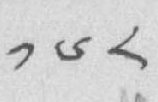༡༦༨
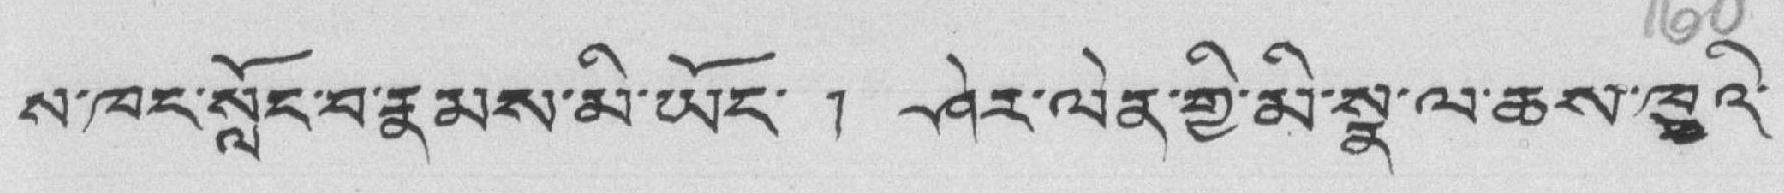ས་ཁང་སློང་བ་རྣམས་མི་ཡོང་ ། ཤེར་ལེན་གྱི་མི་སྣ་ལ་ཆས་ཁྲཁའི་
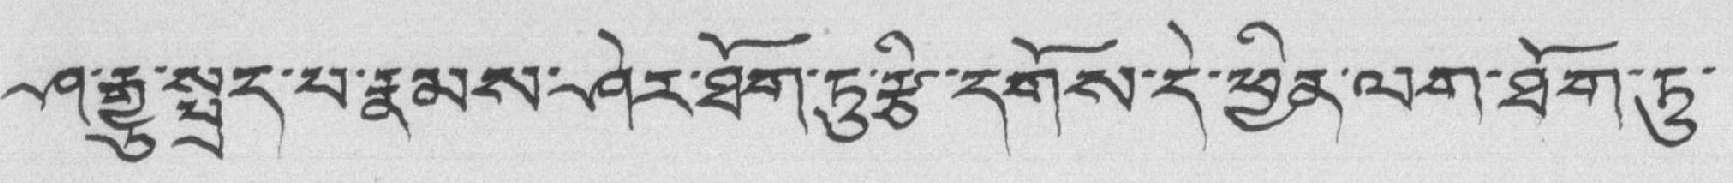ཤ་རྒྱུ་སྤྲད་པ་རྣམས་ཤེར་ཐོག་ཏུ་རྩི་དགོས་དེ་ཕྱིན་ལག་ཐོག་ཏུ་
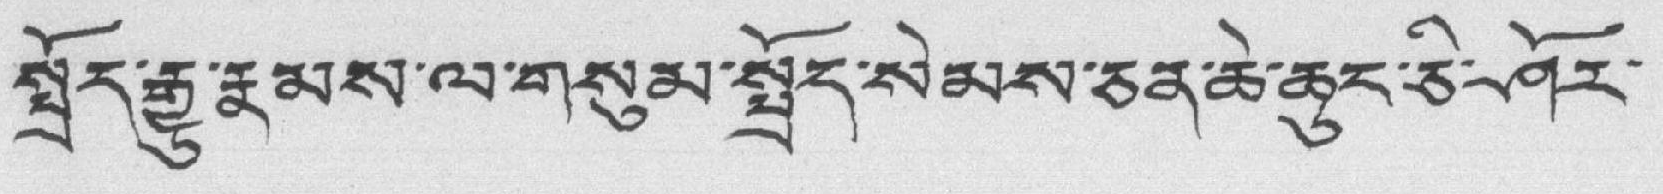སྤྲོད་རྒྱུ་རྣམས་ལ་གསུམ་སྤྲོད་སེམས་ཅན་ཆེ་ཆུང་ཅི་ཤོར་
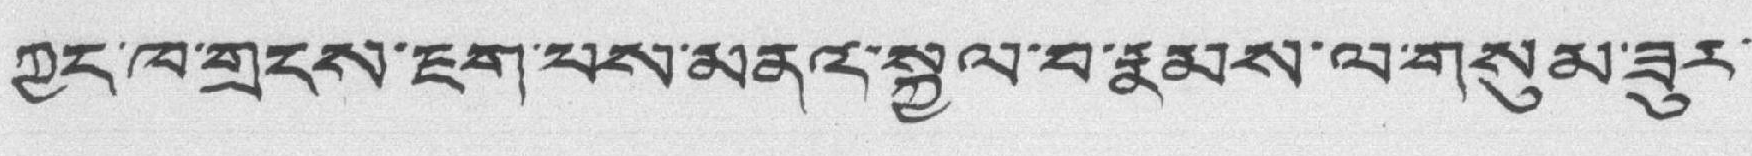ཀྱང་ཁ་གྲངས་ཇག་པས་མནའ་སྐྱལ་བ་རྣམས་ལ་གསུམ་ཟུར་
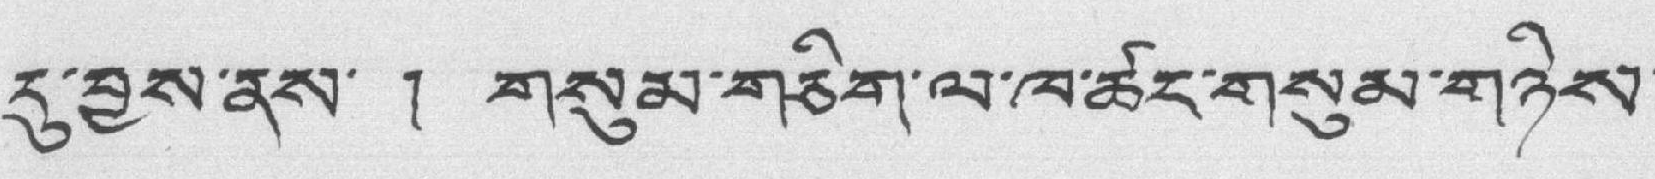དུ་བྱས་ནས་ ། གསུམ་གཅིག་ལ་ཁ་ཚང་གསུམ་གཉིས་
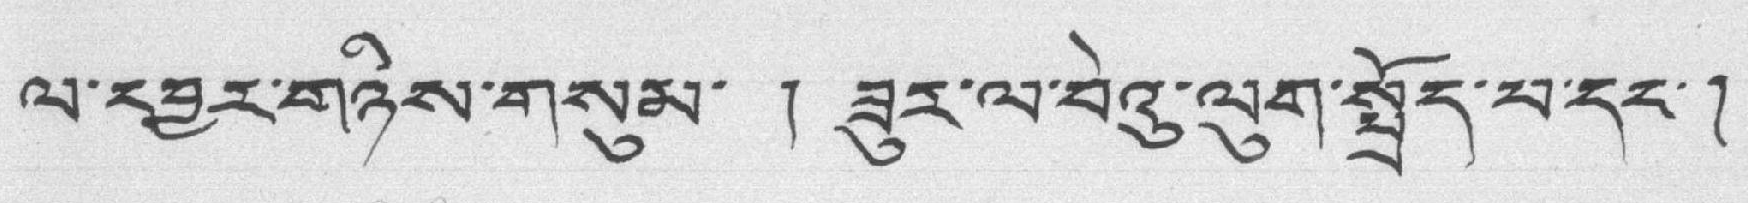ལ་དབྱར་གཉིས་གསུམ་ ། ཟུར་ལ་བེའུ་ལུག་སྤྲོད་པ་དང་།
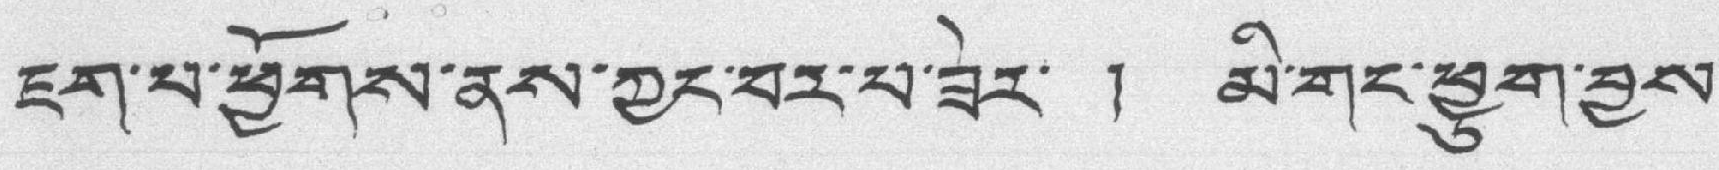ཇག་པ་ཕྱོགས་ནས་ཀྱང་བར་པ་ཟེར་ ། མི་གང་ཕྱུག་བྱས་
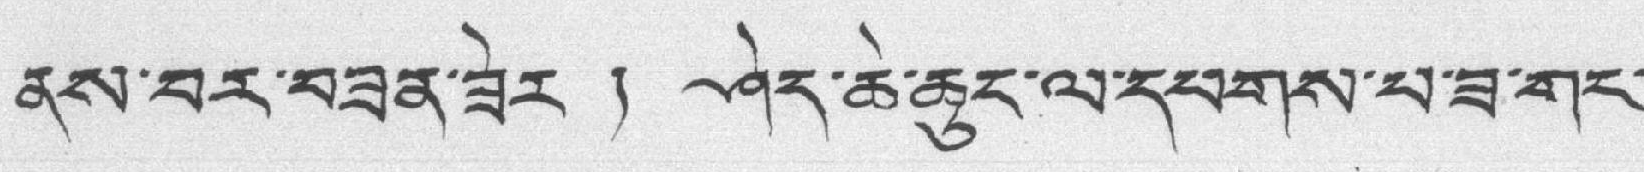ནས་བར་བཟན་ཟེར ། ཤེད་ཆེ་ཆུང་ལ་དཔགས་པ་ཟ་གང་
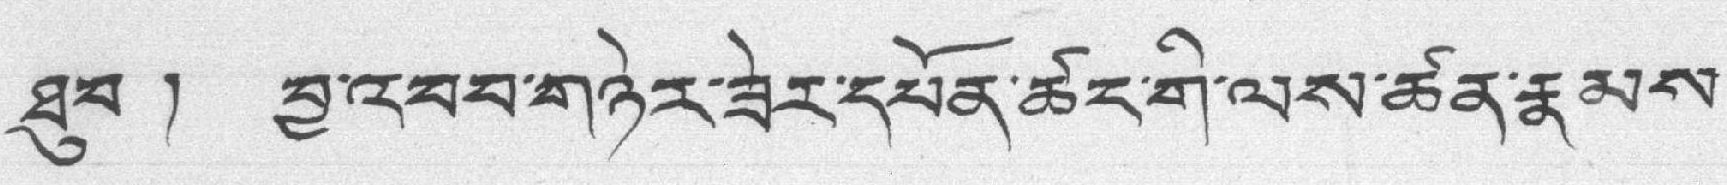ཐུབ ། བྱ་འབབ་གཉེར་ཟེར་དཔོན་ཚང་གི་ལས་ཚན་རྣམས་
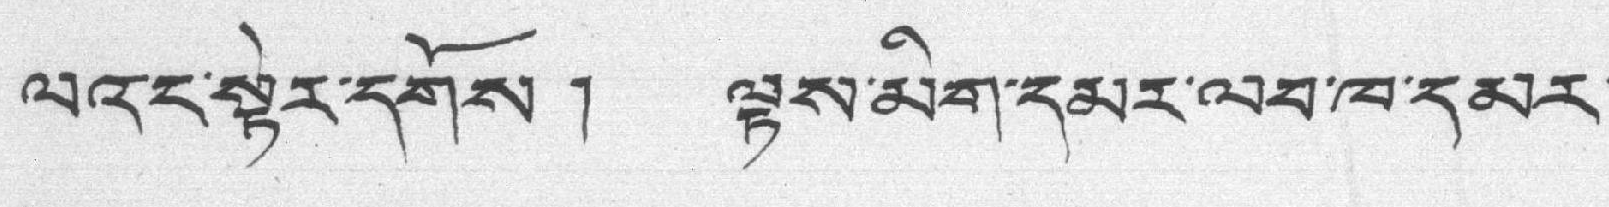ལའང་སྟེར་དགོས ། ལྟས་མིག་དམར་ལབ་ཁ་དམར་
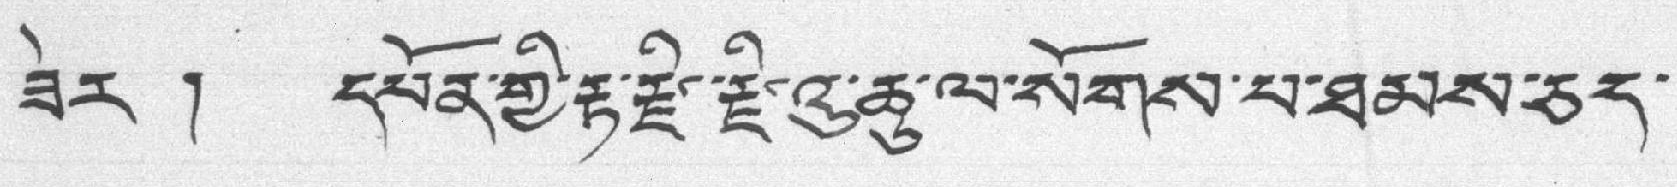ཟེར ། དཔོན་གྱི་རྟ་རྫི་རྫིའུ་ཆུ་ལ་སོགས་པ་ཐམས་ཅད་
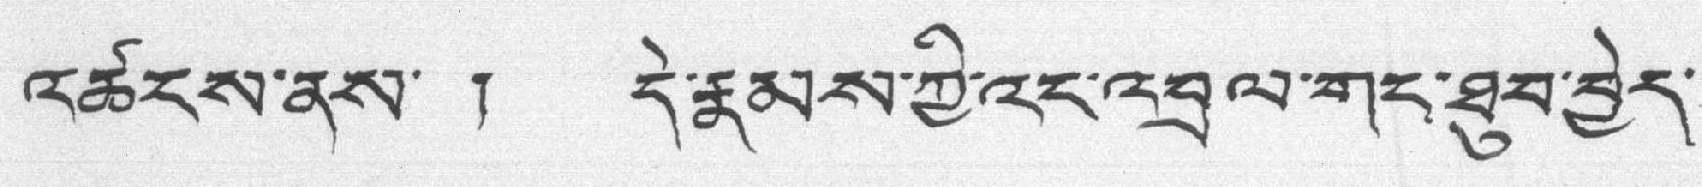འཚངས་ནས་ ། དེ་རྣམས་ཀྱི་འང་འབྲེལ་གང་ཐུབ་བྱེད་
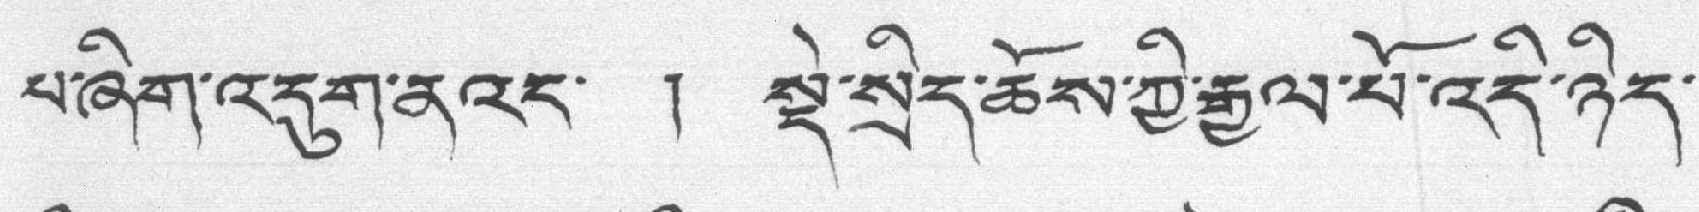པ་ཞིག་འདུག་ནའང་ ། སྡེ་སྲིད་ཆོས་ཀྱི་རྒྱལ་པོ་འདི་ཉིད་
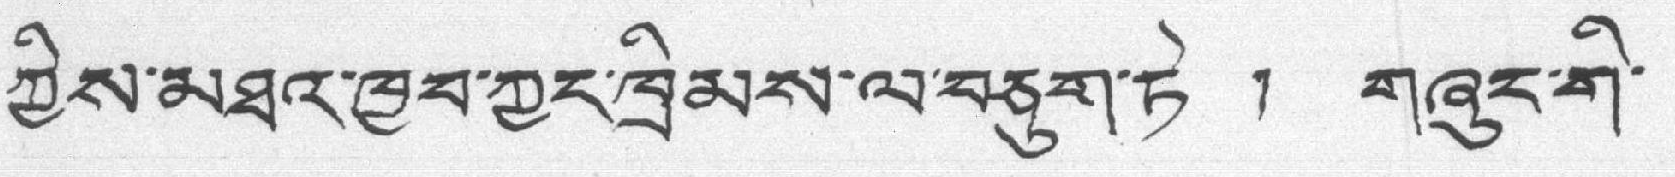ཀྱིས་མཐའ་ཁྱབ་ཀྱང་ཁྲིམས་ལ་བཅུག་ཏེ ། གཞུང་གི་
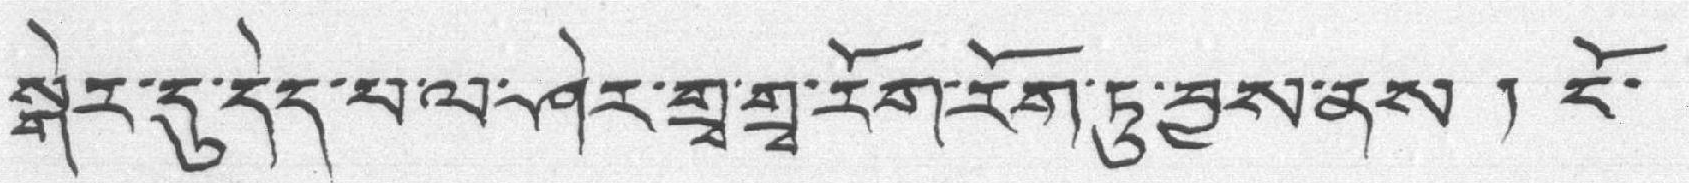སྒེར་དུ་དེད་པ་ལ་ཤེར་གྲྭ་གྲྭ་རོག་རོག་ཏུ་བྱས་ནས ། ངོ་
